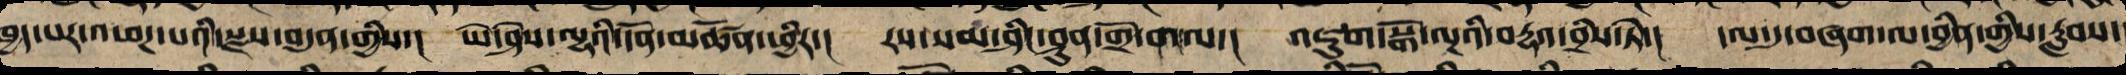ཁྱད་པར་འཕཌ་པའི་སྫས་བདུན་གྱིས་།  ཡེ་ཤེས་ལྷའི་དོན་མཚོན་ཕྱིར་།  རས་སམ་ཤིང་ཤུན་གྲོ་ག་ལ་།  འཇུག་སྒོ་ལྔའི་བརྡའ་བྲིས་ཏེ་།  དལ་དུ་བཞག་ལ་བྱིན་གྱིས་རླབས་
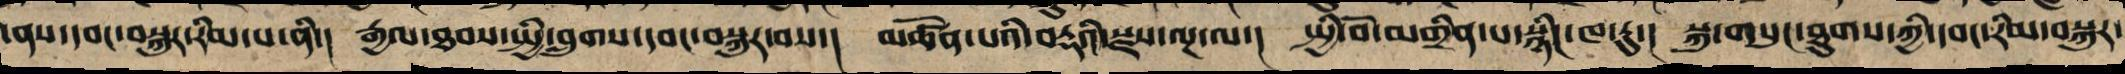་ནས་དབང་བསྐུར་རིམ་པ་ནི་།  རྒྱལ་ཐབས་སྤྱི་བླུགས་དབང་བསྐུར་བས་།  མཚོན་པའི་བརྡའི་སྫས་ལྔ་ལ་།  སྤྱི་བོ་མགྲིན་པ་སྙིང་ཁ་རུ་།  སྐུ་གསུང་ཐུགས་ཀྱི་དབང་རིམ་བསྐུར་
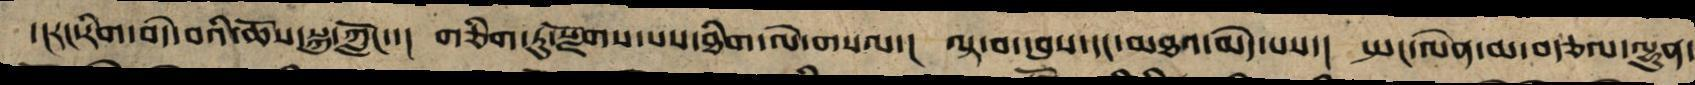་།རང་རིག་བདེ་བ་ཆོས་སྐུའི་ཀློང་་།  གཅིག་ཏུ་སྫོགས་པས་ཐིག་ལེ་གསལ་། ལྟ་བ་དབུས་དང་མཐའ་མེད་པས་།  སྤང་ལེན་མ་བརྩལ་ལྷུན་
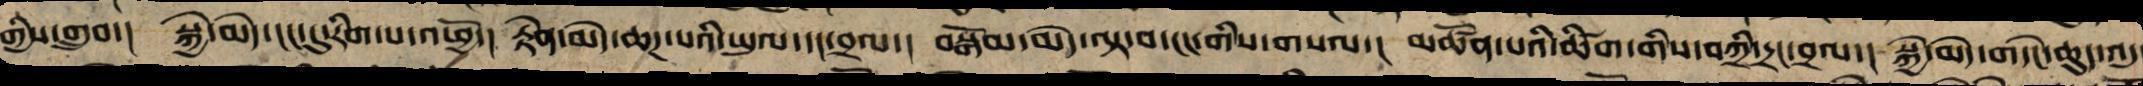གྱིས་གྲུབ་།  སྐྱེ་མེད་ངང་དུ་རིག་པ་འཕྱོ་།  རྟེན་མེད་ཆཌ་པའི་ཡུལ་དང་བྲལ་།  བསྒོམ་མེད་ལྟ་བ་ངང་གིས་གསལ་།  མཚོན་པའི་ཚིག་གིས་བཀྲི་དྲང་བྲལ་།  སྐྱེ་མེད་གདེང་ཆུད་འདུ
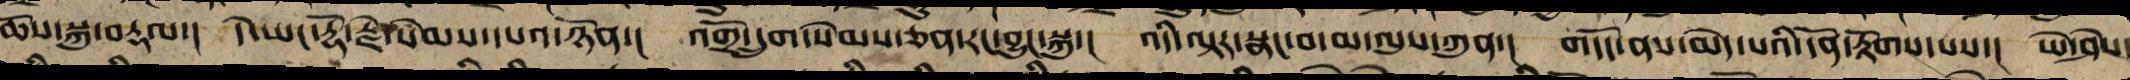ཆོས་སྐུ་བརྡལ་།  དེ་ཡང་རྡོ་རྗེ་སེམས་དཔའ་ཉོན་།  འགྲོ་དྲུག་སེམས་ཅན་རང་བྱུང་སྐུ་།  འདི་ལྟར་སྣང་བ་མ་ལུས་ཀུན་།  གདོད་ནས་མེད་པའི་དོན་རྟོགས་པས་།  ཡེ་ཤེས་
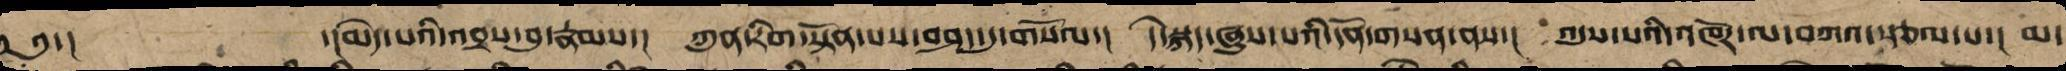༄་།    ་།མེད་པའི་འབྲས་བུ་རྣམས་།  ཀུན་རིག་སྟོན་པས་བཤད་དུ་གསོལ་།  དེ་སྐད་ཞུས་པའི་དོན་གསན་ནས་། འདུས་པའི་འཁོར་ལ་བཀའ་སྩལ་པ་།  མ་
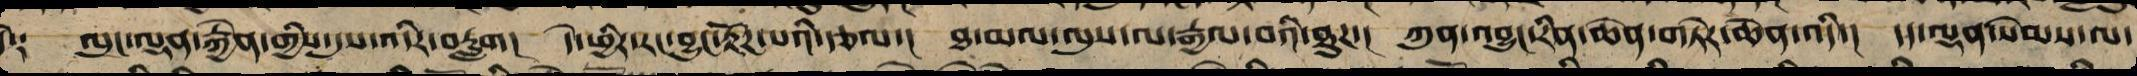དེ༑  ལུང་ལྡན་རྐྱེན་གྱིས་དུས་འདིར་བརླག།  དེ་ཕྱིར་རང་བྱུང་རྟོཌ་པའི་རྩལ་།   ཐ་མལ་ལུས་ལ་རྒྱལ་བའི་ཐུཌ་།   ཀུན་འབྱུང་རིན་ཆེན་གཏེར་ཆེན་འདི་།  དད་ལྡན་སེམས་ལ་
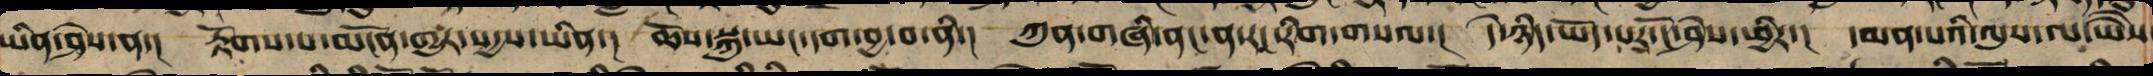ཡིན་ཤེས་ན་།  རྟོགས་པ་མངོན་གྱུར་སདྱས་ཡིན་།  ཆོས་སྐུ་ཡང་དག་བྱ་བ་ནི་།  ཀུན་གཞི་ནང་ན་རང་རིག་གསལ་།  དེ་ཉིད་ཡོད་པར་ངོ་ཤེས་ཕྱིར་།  དམན་པའི་ལུས་ལ་ཡེཻས
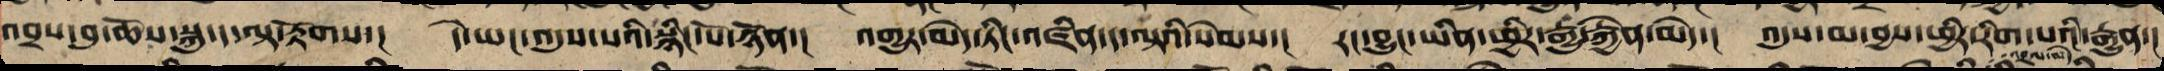འབྲས་བུའི་ཆོས་སྐུ་ད་ལྟ་རྟོགས་།  དེ་ཡང་འདུས་པའི་སྙིང་པོ་ཉོན་།  འགྱུར་མེད་ཏིང་འཛིན་ད་ལྟའི་སེམས་།  རང་བྱུང་ཡིན་ཕྱིར་རྒྱུ་རྐྱེན་མེད་།  འདུས་མ་བྱས་ཕྱིར་རིག་པའི་རྒྱུན་།
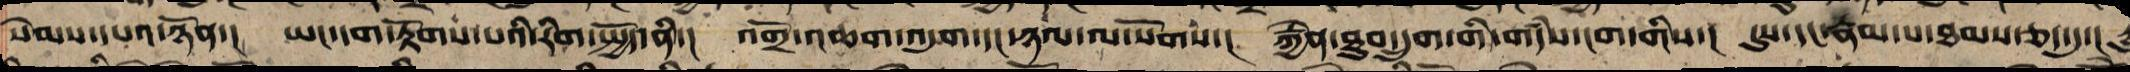སེམས་དཔའ་ཉོན།   ཡང་དག་རྟོགས་པའི་རིག་སྤྱོད་ནི།    འགྲོ་འཆག་འདུག་དང་ཉལ་ལ་སོགས།   རྐྱེན་ཐུབ་དྲུག་གི་གདཾས་ངག་གིས་།    དུས་དང་རྣམ་པ་ཐམས་ཅད་དུ་།
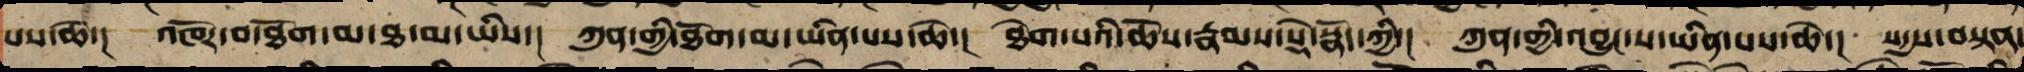པས་ཆེ་།  འཁོར་བ་ཐོག་མ་ཐ་མ་ཡིས་།  ཀུན་གྱི་ཐོག་མ་ཡིན་པས་ཆེ་།  ཐེག་པའི་ཆོས་རྣམས་སྡེ་སྣོད་ཀྱི་།  ཀུན་གྱི་འབྱུང་ས་ཡིན་པས་ཆེ་།  སདྱས་བསྟན་
